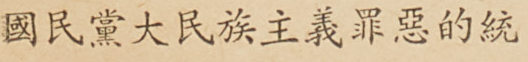國民黨大民族主義罪惡的統
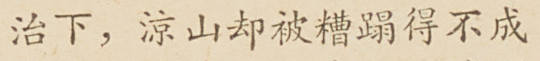治下，涼山卻被糟蹋得不成
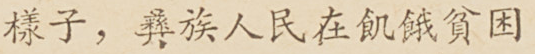樣子，彝族人民在飢餓貧困
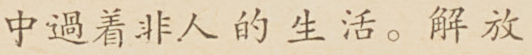中過着非人的生活。解放
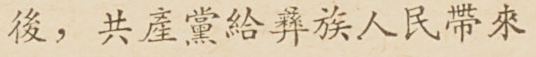後，共產黨給彝族人民帶來
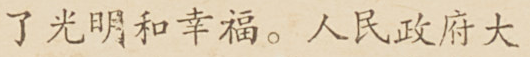了光明和幸福。人民政府大
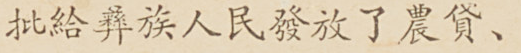批給彝族人民發放了農貸、
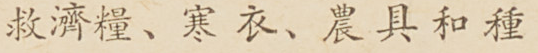救濟糧、寒衣、農具和種
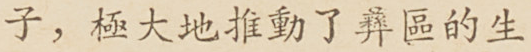子，極大地推動了彝區的生
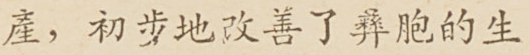產，初步地改善了彝胞的生
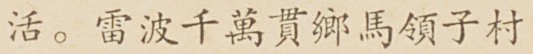活。雷波千萬貫鄉馬領子村
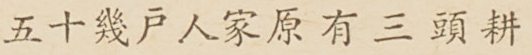五十幾戶人家原有三頭耕
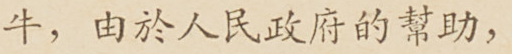牛，由於人民政府的幫助，
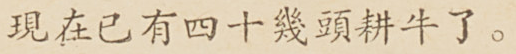現在已有四十幾頭耕牛了。
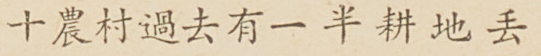十農村過去有一般耕地丟
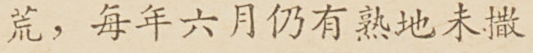荒，每年六月仍有熟地未撒
